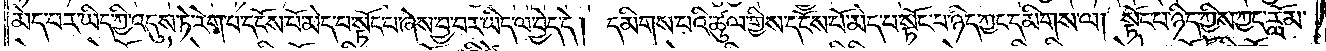མེད་པར་ཡིད་ཀྱི་འདུས་ཏེ་རེག་པ་དངོས་པོ་མེད་པ་སྟོང་པ་ཞེས་བྱ་བར་ཡིད་ལ་བྱེད་དེ། དམིགས་པའི་ཚུལ་གྱིས་དངོས་པོ་མེད་པ་སྟོང་པ་ཉིད་ཀྱང་དམིགས་ལ། སྟོང་པ་ཉིད་ཀྱིས་ཀྱང་རློམ་
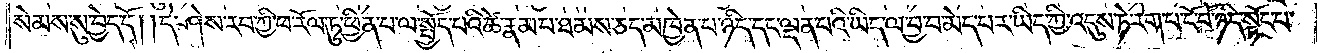སེམས་སུ་བྱེད་དོ། །དེ་ཤེས་རབ་ཀྱི་ཕ་རོལ་ཏུ་ཕྱིན་པ་ལ་སྤྱོད་པའི་ཚེ་རྣམ་པ་ཐམས་ཅད་མཁྱེན་པ་ཉིད་དང་ལྡན་པའི་ཡིད་ལ་བྱ་བ་མེད་པར་ཡིད་ཀྱི་འདུས་ཏེ་རེག་པ་ངོ་བོ་ཉིད་སྟོང་པ་
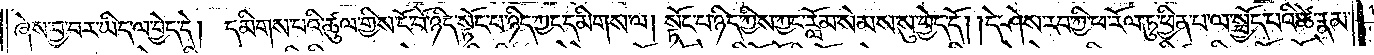ཞེས་བྱ་བར་ཡིད་ལ་བྱེད་དེ། དམིགས་པའི་ཚུལ་གྱིས་ངོ་བོ་ཉིད་སྟོང་པ་ཉིད་ཀྱང་དམིགས་ལ། སྟོང་པ་ཉིད་ཀྱིས་ཀྱང་རློམ་སེམས་སུ་བྱེད་དོ། །དེ་ཤེས་རབ་ཀྱི་ཕ་རོལ་ཏུ་ཕྱིན་པ་ལ་སྤྱོད་པའི་ཚེ་རྣམ་
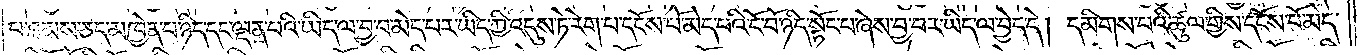པ་ཐམས་ཅད་མཁྱེན་པ་ཉིད་དང་ལྡན་པའི་ཡིད་ལ་བྱ་བ་མེད་པར་ཡིད་ཀྱི་འདུས་ཏེ་རེག་པ་དངོས་པོ་མེད་པའི་ངོ་བོ་ཉིད་སྟོང་པ་ཞེས་བྱ་བར་ཡིད་ལ་བྱེད་དེ། དམིགས་པའི་ཚུལ་གྱིས་དངོས་པོ་མེད་
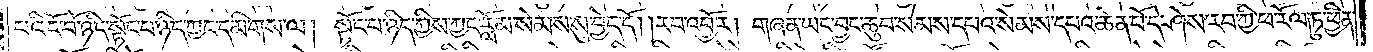པའི་ངོ་བོ་ཉིད་སྟོང་པ་ཉིད་ཀྱང་དམིགས་ལ། སྟོང་པ་ཉིད་ཀྱིས་ཀྱང་རློམ་སེམས་སུ་བྱེད་དོ། །རབ་འབྱོར། གཞན་ཡང་བྱང་ཆུབ་སེམས་དཔའ་སེམས་དཔའ་ཆེན་པོ་དེ་ཤེས་རབ་ཀྱི་ཕ་རོལ་ཏུ་ཕྱིན་
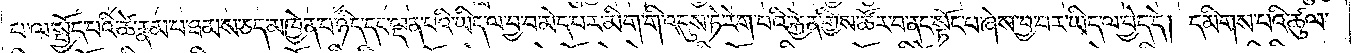པ་ལ་སྤྱོད་པའི་ཚེ་རྣམ་པ་ཐམས་ཅད་མཁྱེན་པ་ཉིད་དང་ལྡན་པའི་ཡིད་ལ་བྱ་བ་མེད་པར་མིག་གི་འདུས་ཏེ་རེག་པའི་རྐྱེན་གྱིས་ཚོར་བ་ནང་སྟོང་པ་ཞེས་བྱ་བར་ཡིད་ལ་བྱེད་དེ། དམིགས་པའི་ཚུལ་
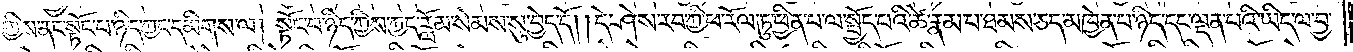གྱིས་ནང་སྟོང་པ་ཉིད་ཀྱང་དམིགས་ལ། སྟོང་པ་ཉིད་ཀྱིས་ཀྱང་རློམ་སེམས་སུ་བྱེད་དོ། །དེ་ཤེས་རབ་ཀྱི་ཕ་རོལ་ཏུ་ཕྱིན་པ་ལ་སྤྱོད་པའི་ཚེ་རྣམ་པ་ཐམས་ཅད་མཁྱེན་པ་ཉིད་དང་ལྡན་པའི་ཡིད་ལ་བྱ་
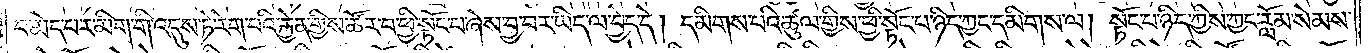བ་མེད་པར་མིག་གི་འདུས་ཏེ་རེག་པའི་རྐྱེན་གྱིས་ཚོར་བ་ཕྱི་སྟོང་པ་ཞེས་བྱ་བར་ཡིད་ལ་བྱེད་དེ། དམིགས་པའི་ཚུལ་གྱིས་ཕྱི་སྟོང་པ་ཉིད་ཀྱང་དམིགས་ལ། སྟོང་པ་ཉིད་ཀྱིས་ཀྱང་རློམ་སེམས་
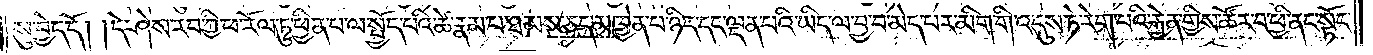སུ་བྱེད་དོ། །དེ་ཤེས་རབ་ཀྱི་ཕ་རོལ་ཏུ་ཕྱིན་པ་ལ་སྤྱོད་པའི་ཚེ་རྣམ་པ་ཐམས་ཅད་མཁྱེན་པ་ཉིད་དང་ལྡན་པའི་ཡིད་ལ་བྱ་བ་མེད་པར་མིག་གི་འདུས་ཏེ་རེག་པའི་རྐྱེན་གྱིས་ཚོར་བ་ཕྱི་ནང་སྟོང་
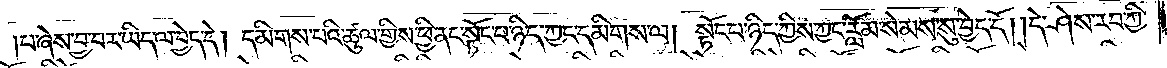པ་ཞེས་བྱ་བར་ཡིད་ལ་བྱེད་དེ། དམིགས་པའི་ཚུལ་གྱིས་ཕྱི་ནང་སྟོང་པ་ཉིད་ཀྱང་དམིགས་ལ། སྟོང་པ་ཉིད་ཀྱིས་ཀྱང་རློམ་སེམས་སུ་བྱེད་དོ། །དེ་ཤེས་རབ་ཀྱི་
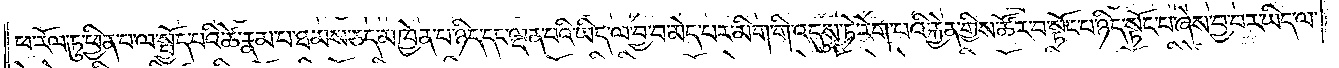ཕ་རོལ་ཏུ་ཕྱིན་པ་ལ་སྤྱོད་པའི་ཚེ་རྣམ་པ་ཐམས་ཅད་མཁྱེན་པ་ཉིད་དང་ལྡན་པའི་ཡིད་ལ་བྱ་བ་མེད་པར་མིག་གི་འདུས་ཏེ་རེག་པའི་རྐྱེན་གྱིས་ཚོར་བ་སྟོང་པ་ཉིད་སྟོང་པ་ཞེས་བྱ་བར་ཡིད་ལ་
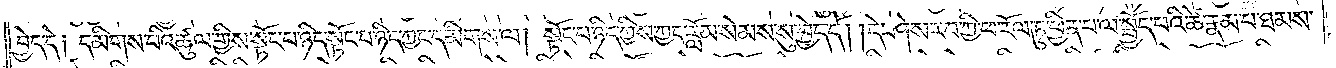བྱེད་དེ༑ དམིགས་པའི་ཚུལ་གྱིས་སྟོང་པ་ཉིད་སྟོང་པ་ཉིད་ཀྱང་དམིགས་ལ། སྟོང་པ་ཉིད་ཀྱིས་ཀྱང་རློམ་སེམས་སུ་བྱེད་དོ། །དེ་ཤེས་རབ་ཀྱི་ཕ་རོལ་ཏུ་ཕྱིན་པ་ལ་སྤྱོད་པའི་ཚེ་རྣམ་པ་ཐམས་
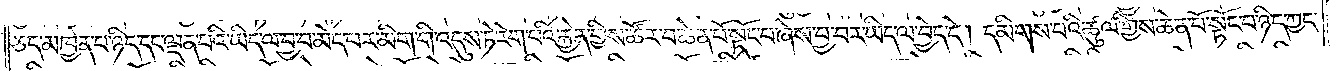ཅད་མཁྱེན་པ་ཉིད་དང་ལྡན་པའི་ཡིད་ལ་བྱ་བ་མེད་པར་མིག་གི་འདུས་ཏེ་རེག་པའི་རྐྱེན་གྱིས་ཚོར་བ་ཆེན་པོ་སྟོང་པ་ཞེས་བྱ་བར་ཡིད་ལ་བྱེད་དེ། དམིགས་པའི་ཚུལ་གྱིས་ཆེན་པོ་སྟོང་པ་ཉིད་ཀྱང་
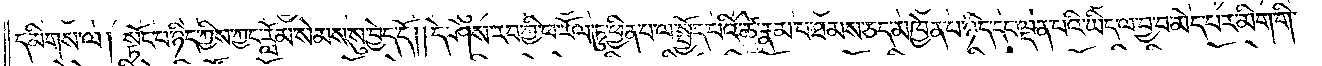དམིགས་ལ། སྟོང་པ་ཉིད་ཀྱིས་ཀྱང་རློམ་སེམས་སུ་བྱེད་དོ། །དེ་ཤེས་རབ་ཀྱི་ཕ་རོལ་ཏུ་ཕྱིན་པ་ལ་སྤྱོད་པའི་ཚེ་རྣམ་པ་ཐམས་ཅད་མཁྱེན་པ་ཉིད་དང་ལྡན་པའི་ཡིད་ལ་བྱ་བ་མེད་པར་མིག་གི་
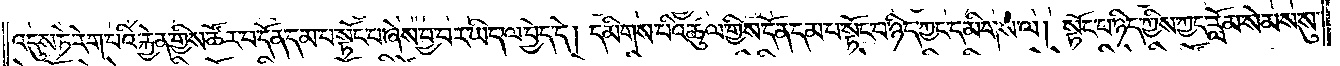འདུས་ཏེ་རེག་པའི་རྐྱེན་གྱིས་ཚོར་བ་དོན་དམ་པ་སྟོང་པ་ཞེས་བྱ་བར་ཡིད་ལ་བྱེད་དེ། དམིགས་པའི་ཚུལ་གྱིས་དོན་དམ་པ་སྟོང་པ་ཉིད་ཀྱང་དམིགས་ལ། སྟོང་པ་ཉིད་ཀྱིས་ཀྱང་རློམ་སེམས་སུ་
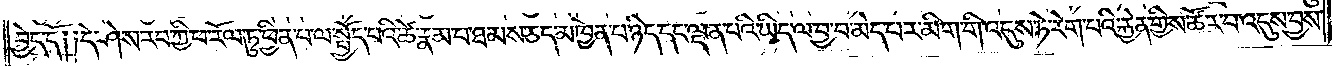བྱེད་དོ༑ ༑དེ་ཤེས་རབ་ཀྱི་ཕ་རོལ་ཏུ་ཕྱིན་པ་ལ་སྤྱོད་པའི་ཚེ་རྣམ་པ་ཐམས་ཅད་མཁྱེན་པ་ཉིད་དང་ལྡན་པའི་ཡིད་ལ་བྱ་བ་མེད་པར་མིག་གི་འདུས་ཏེ་རེག་པའི་རྐྱེན་གྱིས་ཚོར་བ་འདུས་བྱས་
